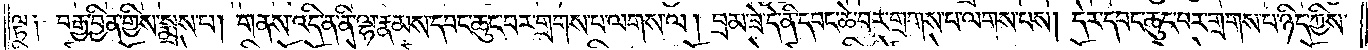ལྟ༑ བརྒྱ་བྱིན་གྱིས་སྨྲས་པ། གནས་འདི་ན་ནི་ལྷ་རྣམས་དབང་ཆུང་བར་གྲགས་པ་ལགས་ལ། བྲམ་ཟེ་དེ་ནི་དབང་ཆེ་བར་གྲགས་པ་ལགས་པས། དེར་དབང་ཆུང་བར་གྲགས་པ་ཉིད་ཀྱིས་
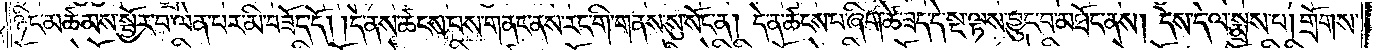ཉིང་མཚམས་སྦྱོར་བ་ལེན་པར་མི་བཟོད་དོ། །དེ་ནས་ཚངས་པས་གནང་ནས་རང་གི་གནས་སུ་སོང་ན། དེ་ན་ཚངས་པ་ཞིག་ཚེ་ཟད་དེ་སྔ་ལྟས་བྱུང་བ་མཐོང་ནས། དེས་དེ་ལ་སྨྲས་པ། གྲོགས་
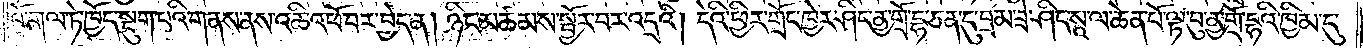པོ་གལ་ཏེ་ཁྱོད་སྡུག་པའི་གནས་ནས་འཆི་འཕོ་བར་བྱེད་ན། ཉིང་མཚམས་སྦྱོར་བར་འདྲའི། དེའི་ཕྱིར་གྲོང་ཁྱེར་ཤིང་ནྱ་གྲོ་དྷ་ཅན་དུ་བྲམ་ཟེ་ཤིང་སཱ་ལ་ཆེན་པོ་ལྟ་བུ་ནྱ་གྲོ་དྷའི་ཁྱིམ་དུ་
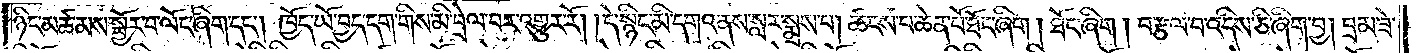ཉིང་མཚམས་སྦྱོར་བ་ལོང་ཞིག་དང༌། ཁྱོད་ཡོ་བྱད་དག་གིས་མི་བྲེལ་བར་འགྱུར་རོ། །དེ་སྙིང་མི་དགའ་ནས་སླར་སྨྲས་པ། ཚངས་པ་ཆེན་པོ་ཐོང་ཞིག། ཐོང་ཞིག །བརྩལ་བ་འདིས་ཅི་ཞིག་བྱ། བྲམ་ཟེ་
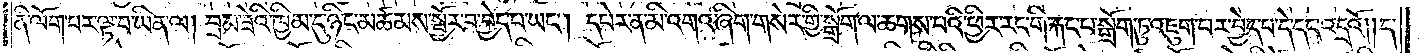ནི་ལོག་པར་ལྟ་བ་ཡིན་ལ། བྲམ་ཟེའི་ཁྱིམ་དུ་ཉིང་མཚམས་སྦྱོར་བ་བྱེད་པ་ཡང༌། དཔེར་ན་མི་འགའ་ཞིག་གསེར་གྱི་སྒྲོག་ལ་ཆགས་པའི་ཕྱིར་རང་གི་རྐང་པ་སྒྲོག་ཏུ་འཇུག་པར་བྱེད་པ་དེ་དང་འདྲའོ། །ད་
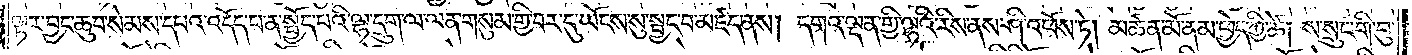ལྟར་བྱང་ཆུབ་སེམས་དཔའ་འདོད་པ་ན་སྤྱོད་པའི་ལྷ་དྲུག་ལ་ལན་གསུམ་གྱི་བར་དུ་ཡོངས་སུ་སྦྱང་བ་མཛད་ནས། དགའ་ལྡན་གྱི་ལྷའི་རིས་ནས་ཤི་འཕོས་ཏེ། མཚན་མོ་ནམ་ཕྱེད་ཀྱི་ཚེ། ས་སྲུང་གི་བུ་
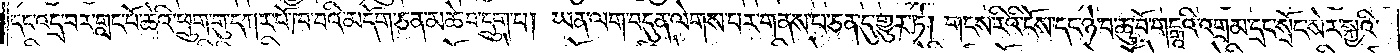དང་འདྲ་བར་གླང་པོ་ཆེའི་ཕྲུག་གུ་དཀར་པོ་ཁ་བའི་མདོག་ཅན་མཆེ་བ་དྲུག་པ། ཡན་ལག་བདུན་ལེགས་པར་གནས་པ་ཅན་དུ་གྱུར་ཏེ། གངས་རིའི་ངོས་དང་ཉེ་བ་ཆུ་བོ་གངྒཱའི་འགྲམ་དྲང་སྲོང་སེར་སྐྱའི་
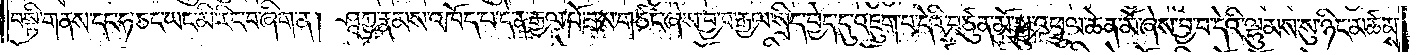བསྟི་གནས་དང་ཧ་ཅང་ཡང་མི་རིང་བ་ཞིག་ན། ཤཱཀྱ་རྣམས་འཁོད་པ་དེ་ན་རྒྱལ་པོ་ཟས་གཙང་ཞེས་བྱ་བ་རྒྱལ་སྲིད་བྱེད་དུ་འཇུག་པ་དེའི་བཙུན་མོ་སྒྱུ་འཕྲུལ་ཆེན་མོ་ཞེས་བྱ་བ་དེའི་ལྷུམས་སུ་ཉིང་མཚམས་
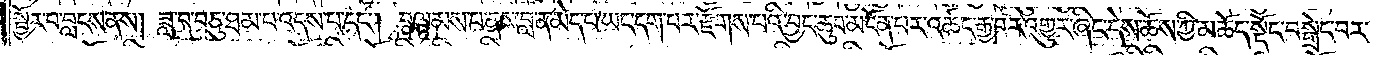སྦྱོར་བ་བླངས་ནས། ཟླ་བ་བཅུ་ཐམ་པ་འདས་པ་དང༌། བལྟམས་པ་ནས་བླ་ན་མེད་པ་ཡང་དག་པར་རྫོགས་པའི་བྱང་ཆུབ་མངོན་པར་འཚང་རྒྱ་བར་འགྱུར་ཞིང་དེས་ཆོས་ཀྱི་མཆོད་སྡོང་བསྒྲེང་བར་
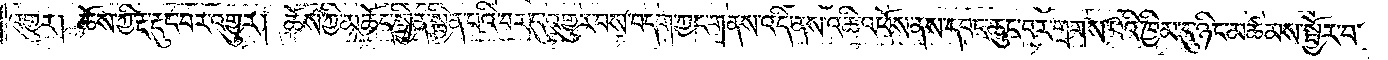འགྱུར། ཆོས་ཀྱི་རྔ་རྡུང་བར་འགྱུར། ཆོས་ཀྱི་མཆོད་སྦྱིན་སྦྱིན་པའི་བར་དུ་འགྱུར་བས་བདག་ཀྱང་གནས་འདི་ནས་འཆི་འཕོས་ནས་དབང་ཆུང་བར་གྲགས་པའི་ཁྱིམ་དུ་ཉིང་མཚམས་སྦྱོར་བ་
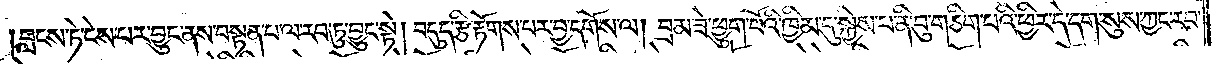བླངས་ཏེ་ངེས་པར་བྱུང་ནས་བསྟན་པ་ལ་རབ་ཏུ་བྱུང་སྟེ། བདུད་རྩི་རྟོགས་པར་བྱ་དགོས་ལ། བྲམ་ཟེ་ཕྱུག་པོའི་ཁྱིམ་དུ་སྐྱེས་པ་ནི་བུ་གཅིག་པའི་ཕྱིར་དེ་དག་སུས་ཀྱང་རབ་
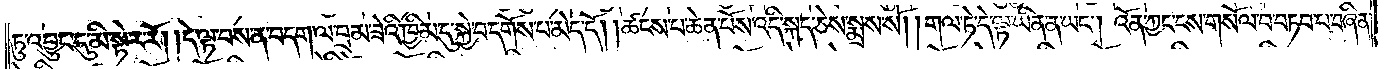ཏུ་འབྱུང་དུ་མི་སྟེར་རོ། །དེ་ལྟ་བས་ན་བདག་ལ་བྲམ་ཟེའི་ཁྱིམ་དུ་སྐྱེ་བ་དགོས་པ་མེད་དོ། །ཚངས་པ་ཆེན་པོས་འདི་སྐད་ཅེས་སྨྲས་སོ། །གལ་ཏེ་དེ་ལྟ་ཡིན་ན་ཡང༌། འོན་ཀྱང་ངས་གསོལ་བ་བཏབ་པ་བཞིན་
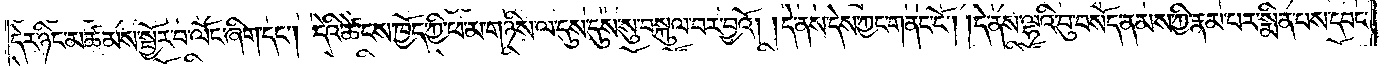དེར་ཉིང་མཚམས་སྦྱོར་བ་ལོང་ཞིག་དང༌། དེའི་ཚེ་ངས་ཁྱོད་ཀྱི་ཕ་མ་གཉིས་ལ་དུས་དུས་སུ་བསྐུལ་བར་བྱའོ། །དེ་ནས་དེས་ཀྱང་གནང་ངོ༌། །དེ་ནས་ལྷའི་བུ་བསོད་ནམས་ཀྱི་རྣམ་པར་སྨིན་པས་དབང་
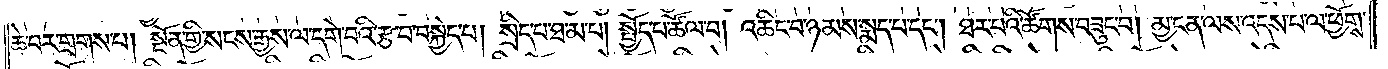ཆེ་བར་གྲགས་པ། སྔོན་གྱི་སངས་རྒྱས་ལ་དགེ་བའི་རྩ་བ་བསྐྱེད་པ། སྲིད་པ་ཐ་མ་པ། སྤྱོད་པ་ཚོལ་བ། འཆིང་བ་ཉམས་སྨད་པ་དང༌། ཐར་པའི་ཚོགས་བཟུང་བ། མྱ་ངན་ལས་འདས་པ་ལ་ཕྱོགས་
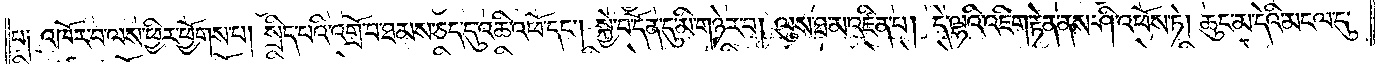པ༑ འཁོར་བ་ལས་ཕྱིར་ཕྱོགས་པ། སྲིད་པའི་འགྲོ་བ་ཐམས་ཅད་དུ་འཆི་འཕོ་དང༌། སྐྱེ་བ་དོན་དུ་མི་གཉེར་བ། ལུས་ཐ་མ་འཛིན་པ། དེ་ལྷའི་འཇིག་རྟེན་ནས་ཤི་འཕོས་ཏེ། ཆུང་མ་དེའི་མངལ་དུ་
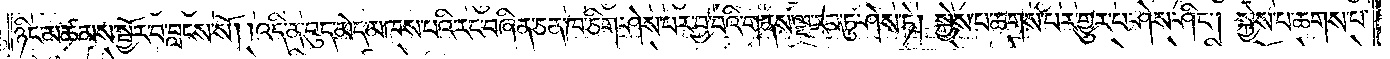ཉིང་མཚམས་སྦྱོར་བ་བླངས་སོ། །འདི་ན་བུད་མེད་མཁས་པའི་རང་བཞིན་ཅན་ཁ་ཅིག་ཤེས་པར་བྱ་བའི་གནས་ལྔ་རབ་ཏུ་ཤེས་ཏེ། སྐྱེས་པ་ཆགས་པར་གྱུར་པ་ཤེས་ཤིང༌། སྐྱེས་པ་ཆགས་པ་
